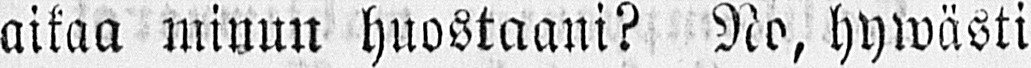aikaa minun huostaani? No, hywästi
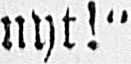nyt!"
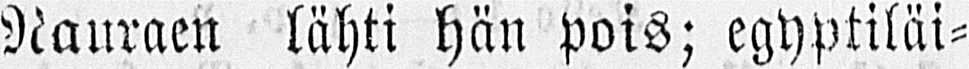Nauraen lähti hän Pois; egyptiläi-
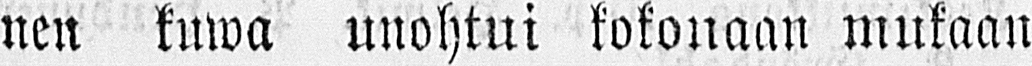nen kuwa unohtui kokonaan mukaan
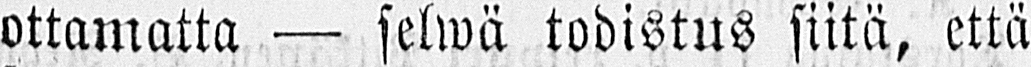ottamatta — selwä todistus siitä, että
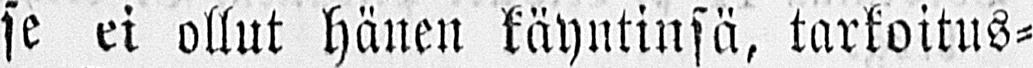se ei ollut hänen käyntinsä, tarkoitus-
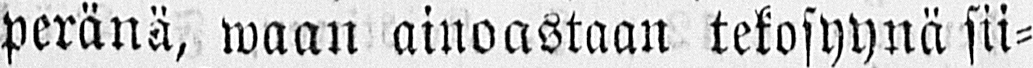peränä, waan ainoastaan tekosyynä sii-
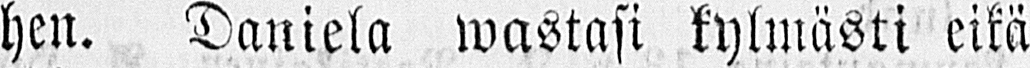hen. Daniela wastasi kylmästi eikä
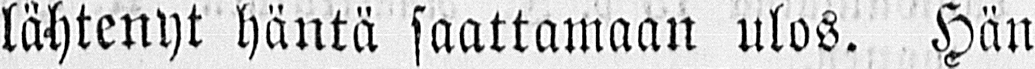lähtenyt häntä saattamaan ulos. Hän
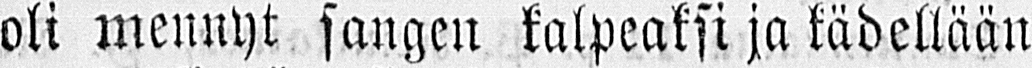oli mennyt sangen kalpeaksi ja kädellään
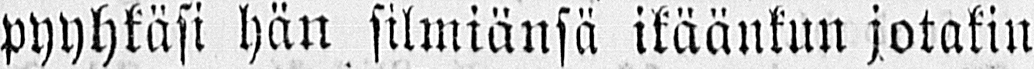pyyhkäsi hän silmiänsä ikäänknn jotakin
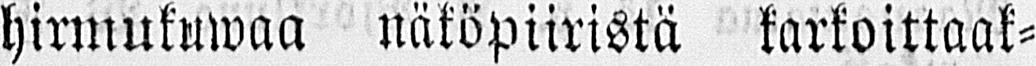hirmukuwaa näköpiiristä karkoittaak-
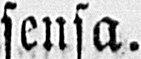sensa.
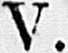V.
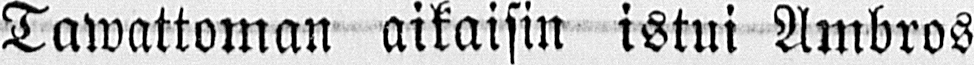Tawattoman aikaisin istui Ambros
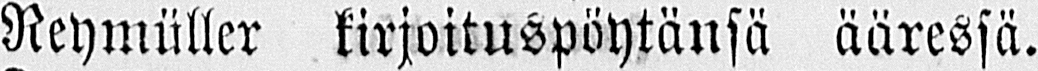Reymüller kirjoituspöytänsä ääressä.
